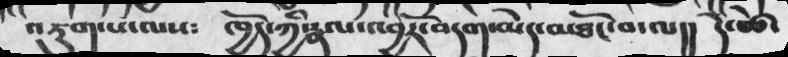འཇུག་པ་ལས༴    ཁྱོད་ཀྱི་རྣལ་འབྱོར་བདག་མེད་མཐོང་བ་ལ།།  དེ་ཚེ་
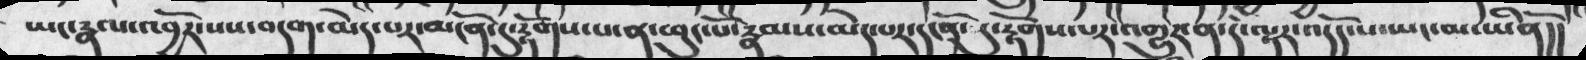ཡང་རྣལ་འབྱོར་པས་བདག་མེད་པར་མངོན་དུ་རྟོགས་པ་ན་ཕུང་པོ་རྣམས་མེད་པར་དངནོ་སུ་རྟོགས་པར་འགྱུར་ན་དེ་ལྟར་འདོད་པ་ཡང་མ་ཡིནོ།།
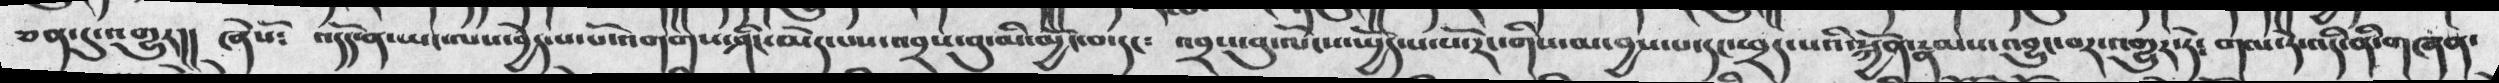ཅན་དུ་འགྱུར།།  ཞེསོ༴  འདོད་ན་ཡང་ལས་བྱེད་པ་པོ་འགགས་ཤིང་མེད་པས་འབྲས་བུ་མི་མྱོང་བ་དང༴  འབྲས་བུ་ལོངས་ཡྱོད་པ་པོ་རང་གིས་མ་བྱས་པ་དང་ཕྲད་པའི་སྐྱོན་རྣམས་འབྱུང་བར་འགྱུརཏེ༴   གལ་ཏེ་འདི་ནི་གཞན་
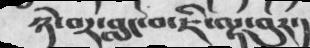ཉེ་བར་བླང་བ་ཇི་ལྟ་བུར་།
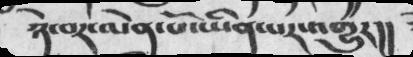ཉེ་བར་ལེན་པོ་ཡིན་པར་འགྱུར།།
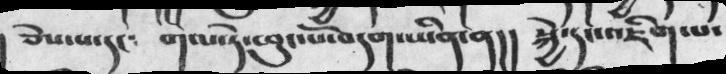ཅེས་པ་དང༴   གལ་ཏེ་ཕུང་པོ་བདག་ཡིན་ན།།   སྐྱེ་དང་འཇིག་པ་
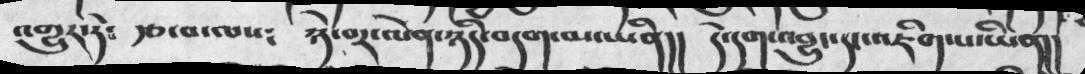འགྱུར་ཏེ༴   རྩ་བ་ལས༴    ཉེ་བར་ལེན་ཉིད་བདག་མ་ཡིན།།    དེ་དག་འབྱུང་དང་འཇིག་པ་ཡིན།།
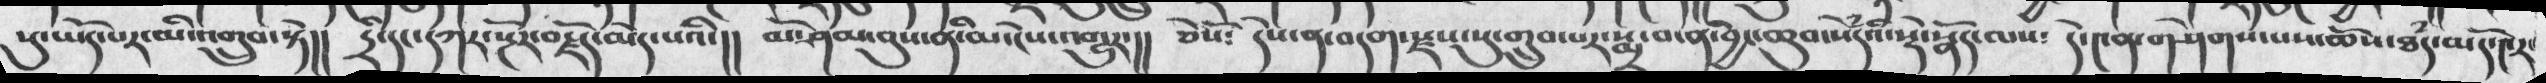སུ་ཡོད་པར་མི་འགྲུབ་སྟེ།།   དྲི་དང་དཀར་སྔོར་བརྗོད་མེད་པའི།།   མོ་ཤམ་བུས་ནི་མ་ངེས་འགྱུར་།།  ཅེསོ༴  དེས་ན་བདག་སྫས་སུ་གྲུབ་པར་སྨྲ་བ་ནི་བྱང་ཆུབ་སེྃདའི་སྡེ་སྣོད་ལས༴  དེ་༤ན་གཤེགས་པས་ཆོས་ཐྃད་མདོ་༤ར
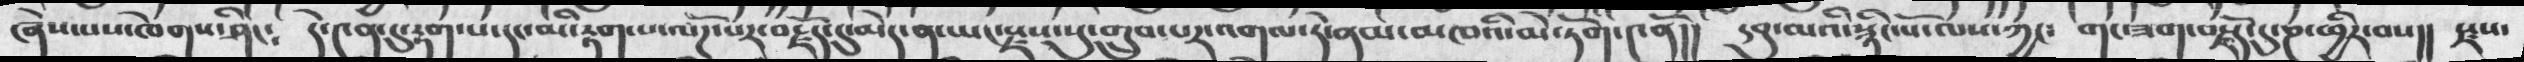ཞེས་པས་ཁེགས་ཤིང༴  དེ་༤ན་དུ་རྟག་པ་དང་མི་རྟག་པ་ལོཌ་པར་བརྗོད་དུ་མེད་ན་ཡང་སྫས་སུ་གྲུུབ་པར་འགལ་ཏེ་ནམ་མཁའི་མེ་ཏོག་༤ནོ།།  དབུ་མའི་སྙིང་པོ་ལས་ཀྱང༴    གང་ཟག་བརྗོད་དུ་ཎ་ཕྱིར་བས།།  སྫས་
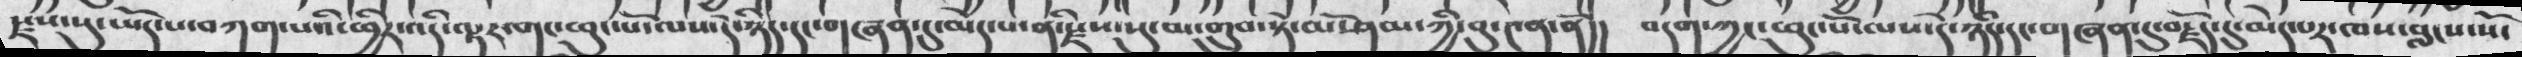སྫས་སུ་ཡོད་པ་བཀག་པའི་ཕྱིར་འདི་ལྟར་གང་ཕུང་པོ་ལས་དེ་ཉིད་དང་གཞན་དུ་མེད་པ་ནི་སྫས་སུ་མ་གྲུབ་སྟེ་མོ་ཤམ་ཀྱི་བུ་༤ན་ནོ།།  བདག་ཀྱང་ཕུང་པོ་ལས་དེ་ཉིད་དང་གཞན་དུ་བརྗོད་དུ་མེད་པར་ཁས་བླངས་སོ་
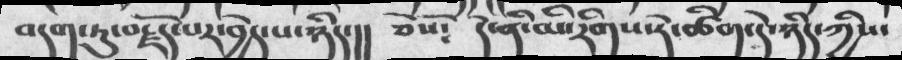བདག་ཏུ་བརྗོད་པར་བྱེད་པ་ཉིད་།།   ཅེསོ༴  དེ་ནི་མི་རིགས་ཏེ་ཚིག་དེ་ཉིད་ཀྱིས་
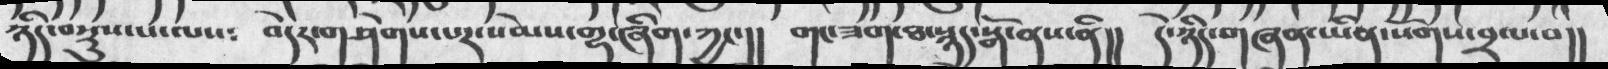ཉིད་བསྡུས་པ་ལས༴   བདེར་གཤེགས་པར་སེམས་གྷ་ཞིག་ཀྱང་།།  གང་ཟག་ཐ་སྙད་སྒོ་ནས་ནི།།   དེ་ཉིད་གཞན་ཡིན་སོགས་བྲལ་བ།།
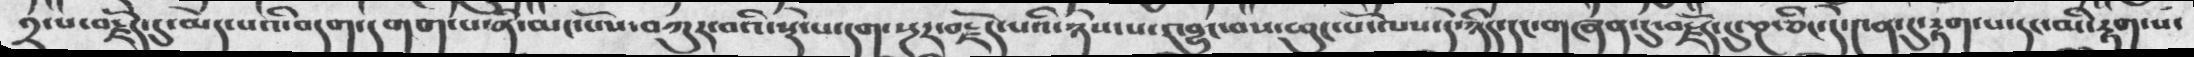༢་པ་བརྗོད་དུ་མེད་པའི་བདག་དུ་དགག་པ་ནི་མང་པོས་བཀུར་བའི་སྟེ་པ་དག་སྔར་བརྗོད་པའི་ཉེས་པ་འབྱུང་བས་ཕུང་པོ་ལས་དེ་ཉིད་དང་གཞན་དུ་བརྗོད་དུ་ཎ་ཅིང་དེ་༤ན་དུ་རྟག་པ་དང་མི་རྟག་པ
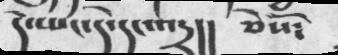དེ་ཡང་དེ་དང་འདྲ།།   ཅེསོ༴
